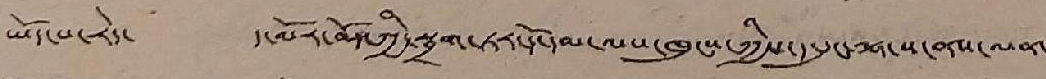ཡོད་པ་རེད་ ད་ལོར་བོད་ཀྱི་སྦྲག་ཏར་དོ་དམ་ལས་ཁུངས་ཀྱིས་ད་དུང་ལྷ་ས་ནས་ལན་
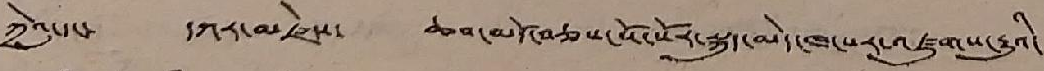ཀྲེའུ་དང་ དཀར་མཛེས་ ཆབ་མདོ་བཅས་སོ་སོར་སྐུད་མེད་ཁ་པར་འཛུགས་རྒྱུའི་
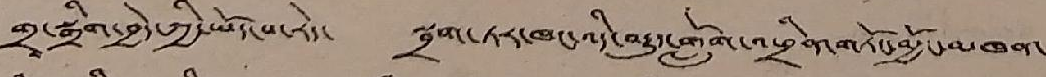གྲྭ་སྒྲིག་བྱེད་ཀྱི་ཡོད་པ་རེད་ སྦྲག་ཏར་ཁང་འདི་བརྒྱུད་གློག་འཕྲིན་གཏོང་མྱོང་མཁན་
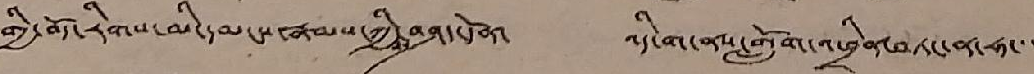གྱི་བོད་རིགས་མི་དམངས་རྣམས་ཀྱིས་བཤད་དོན་ འདི་ག་ནས་གློག་འཕྲིན་བཏང་ན་ཧ་་་
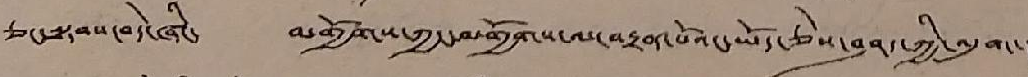ཅང་སྟབས་བདེ་ཞིང་ མགྱོགས་ཀྱང་མགྱོགས་ལ་བརྟན་པོའང་ཡོད་ཅེས་བཤད་ཀྱི་འདུག་།
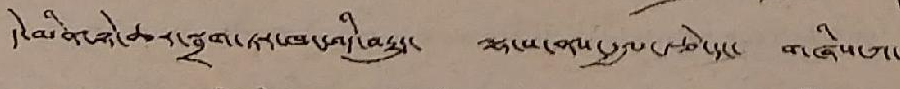དེ་མིན་ཉེ་ཆར་སྦྲག་ཏར་ཁང་འདི་བརྒྱུད་ ལྷ་ས་ནས་རྒྱལ་རྩེ་དང་ གཞིས་ཀ་
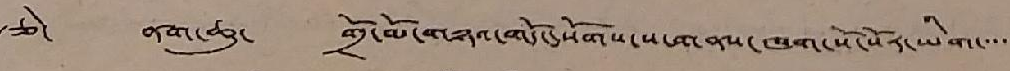རྩེ་ ནག་ཆུ་ གྲོ་མོ་གཉའ་གདོང་སོགས་ས་གནས་ཁག་སོ་སོར་ཡིག་་་་་
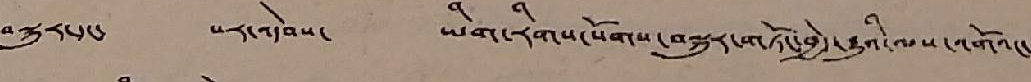བསྐུར་དང་ པར་འདེབས་ ཡིག་རིགས་སོགས་བསྐུར་གཏོང་བྱེད་རྒྱུའི་ལས་འགོའང་
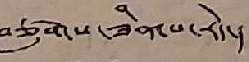བཙུགས་ཟིན་པ་རེད་།
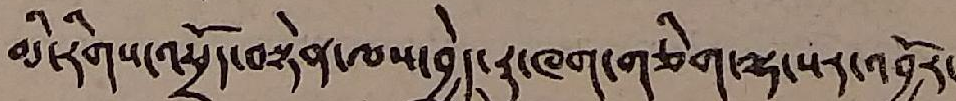མི་རིགས་འཕྲོད་བསྟེན་ལས་བྱེད་རུ་ཁག་གཅིག་ལྷ་སར་འབྱོར་
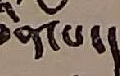ཟིན་པ་།
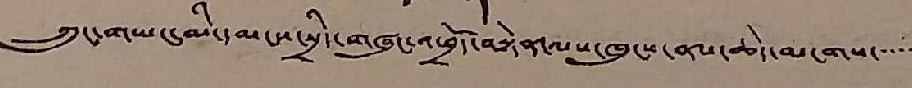ཀྲུང་གཡང་མི་དམངས་སྲིད་གཞུང་འཕྲོད་བསྟེན་ལས་ཁུངས་ནས་ཆེད་མངགས་་་་་
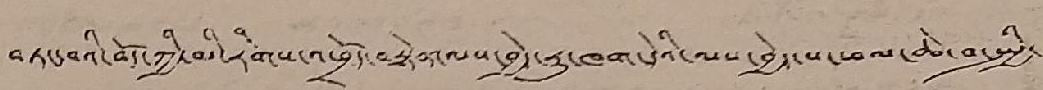བཏང་བའི་བོད་ཀྱི་མི་རིགས་འཕྲོད་བསྟེན་ལས་བྱེད་རྒྱུ་ཁག་དེའི་ལས་བྱེད་པ་ཕལ་ཆེ་བ་སྤྱི་
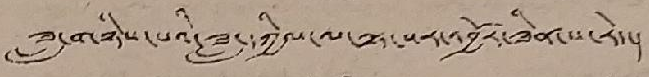ཟླ་གཉིས་པའི་ཟླ་དཀྱིལ་ལ་ལྷ་སར་འབྱོར་ཟིན་པ་རེད་།
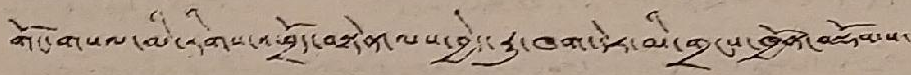གོང་གསལ་མི་རིགས་འཕྲོད་བསྟེན་ལས་བྱེད་རུ་ཁག་དེར་མི་གྲངས་ཁྱོན་བསྡོམས་
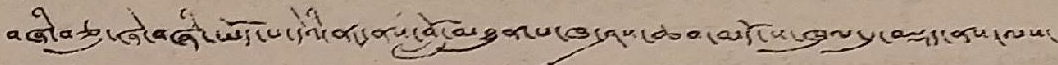བཞི་བཅུ་ཞེ་བཞི་ཡོད་པ་དེའི་ནང་ནས་བློ་མཐུན་པ་ཁ་ཤས་ཆབ་མདོ་ས་ཁུལ་དུ་བསྡད་ནས་ལས་
